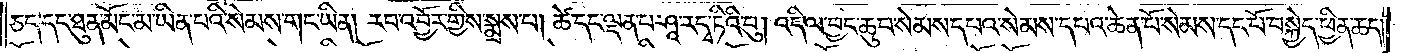ཅད་དང་ཐུན་མོང་མ་ཡིན་པའི་སེམས་གང་ཡིན། རབ་འབྱོར་གྱིས་སྨྲས་པ། ཚེ་དང་ལྡན་པ་ཤཱ་རདྭ་ཏིའི་བུ། འདི་ལ་བྱང་ཆུབ་སེམས་དཔའ་སེམས་དཔའ་ཆེན་པོ་སེམས་དང་པོ་བསྐྱེད་ཕྱིན་ཆད།
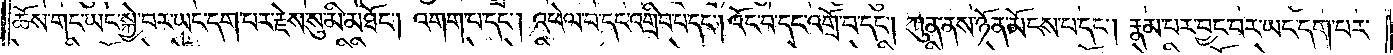ཆོས་གང་ཡང་སྐྱེ་བར་ཡང་དག་པར་རྗེས་སུ་མི་མཐོང༌། འགག་པ་དང༌། འཕེལ་བ་དང་འགྲིབ་པ་དང༌། འོང་བ་དང་འགྲོ་བ་དང༌། ཀུན་ནས་ཉོན་མོངས་པ་དང༌། རྣམ་པར་བྱང་བར་ཡང་དག་པར་
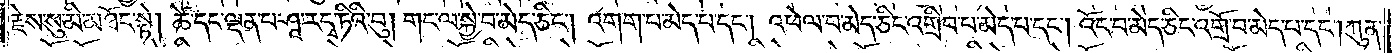རྗེས་སུ་མི་མཐོང་སྟེ། ཚེ་དང་ལྡན་པ་ཤཱ་རདྭ་ཏིའི་བུ། གང་ལ་སྐྱེ་བ་མེད་ཅིང༌། འགག་པ་མེད་པ་དང༌། འཕེལ་བ་མེད་ཅིང་འགྲིབ་པ་མེད་པ་དང༌། འོང་བ་མེད་ཅིང་འགྲོ་བ་མེད་པ་དང༌། ཀུན་
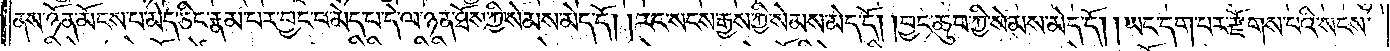ནས་ཉོན་མོངས་པ་མེད་ཅིང་རྣམ་པར་བྱང་བ་མེད་པ་དེ་ལ་ཉན་ཐོས་ཀྱི་སེམས་མེད་དོ། །རང་སངས་རྒྱས་ཀྱི་སེམས་མེད་དོ། །བྱང་ཆུབ་ཀྱི་སེམས་མེད་དོ། །ཡང་དག་པར་རྫོགས་པའི་སངས་
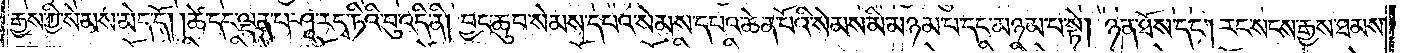རྒྱས་ཀྱི་སེམས་མེད་དོ། །ཚེ་དང་ལྡན་པ་ཤཱ་རདྭ་ཏིའི་བུ་འདི་ནི། བྱང་ཆུབ་སེམས་དཔའ་སེམས་དཔའ་ཆེན་པོའི་སེམས་མི་མཉམ་པ་དང་མཉམ་པ་སྟེ། ཉན་ཐོས་དང༌། རང་སངས་རྒྱས་ཐམས་
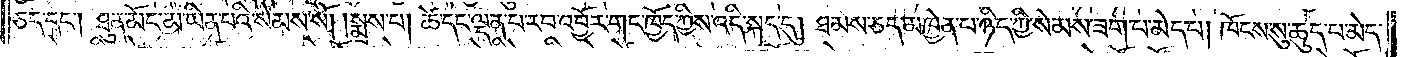ཅད་དང༌། ཐུན་མོང་མ་ཡིན་པའི་སེམས་སོ། །སྨྲས་པ། ཚེ་དང་ལྡན་པ་རབ་འབྱོར་གང་ཁྱོད་ཀྱིས་འདི་སྐད་དུ། ཐམས་ཅད་མཁྱེན་པ་ཉིད་ཀྱི་སེམས་ཟག་པ་མེད་པ། ཁོངས་སུ་ཆུད་པ་མེད་
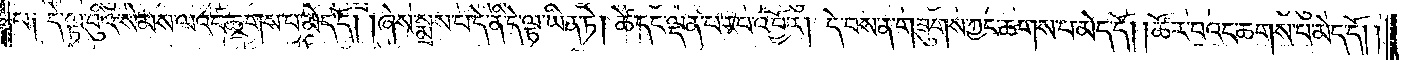པ༑ དེ་ལྟ་བུའི་སེམས་ལའང་ཆགས་པ་མེད་དོ། ཞེས་སྨྲས་པ་དེ་ནི་དེ་ལྟ་ཡིན་ཏེ། ཚེ་དང་ལྡན་པ་རབ་འབྱོར། དེ་བས་ན་གཟུགས་ཀྱང་ཆགས་པ་མེད་དོ། །ཚོར་བའང་ཆགས་པ་མེད་དོ། །
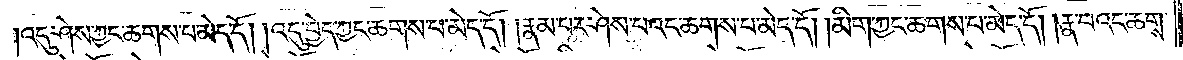འདུ་ཤེས་ཀྱང་ཆགས་པ་མེད་དོ། །འདུ་བྱེད་ཀྱང་ཆགས་པ་མེད་དོ། །རྣམ་པར་ཤེས་པའང་ཆགས་པ་མེད་དོ། །མིག་ཀྱང་ཆགས་པ་མེད་དོ། །རྣ་བའང་ཆགས་
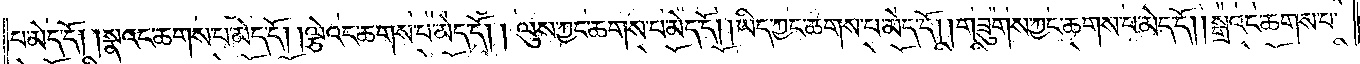པ་མེད་དོ། །སྣའང་ཆགས་པ་མེད་དོ། །ལྕེའང་ཆགས་པ་མེད་དོ། །ལུས་ཀྱང་ཆགས་པ་མེད་དོ། །ཡིད་ཀྱང་ཆགས་པ་མེད་དོ། །གཟུགས་ཀྱང་ཆགས་པ་མེད་དོ། །སྒྲའང་ཆགས་པ་
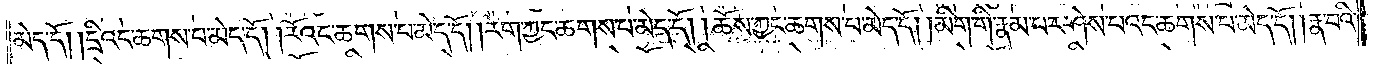མེད་དོ། །དྲིའང་ཆགས་པ་མེད་དོ། །རོའང་ཆགས་པ་མེད་དོ། །རེག་ཀྱང་ཆགས་པ་མེད་དོ། །ཆོས་ཀྱང་ཆགས་པ་མེད་དོ། །མིག་གི་རྣམ་པར་ཤེས་པའང་ཆགས་པ་མེད་དོ། །རྣ་བའི་
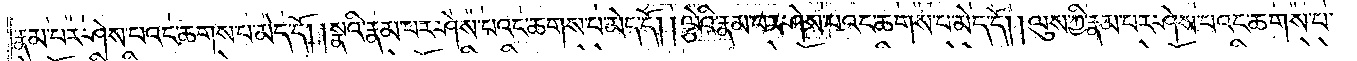རྣམ་པར་ཤེས་པའང་ཆགས་པ་མེད་དོ། །སྣའི་རྣམ་པར་ཤེས་པའང་ཆགས་པ་མེད་དོ། །ལྕེའི་རྣམ་པར་ཤེས་པའང་ཆགས་པ་མེད་དོ། །ལུས་ཀྱི་རྣམ་པར་ཤེས་པའང་ཆགས་པ་
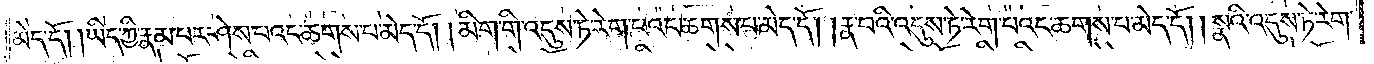མེད་དོ། །ཡིད་ཀྱི་རྣམ་པར་ཤེས་པའང་ཆགས་པ་མེད་དོ། །མིག་གི་འདུས་ཏེ་རེག་པའང་ཆགས་པ་མེད་དོ། །རྣ་བའི་འདུས་ཏེ་རེག་པའང་ཆགས་པ་མེད་དོ། །སྣའི་འདུས་ཏེ་རེག་
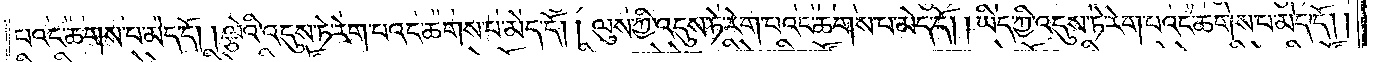པའང་ཆགས་པ་མེད་དོ། །ལྕེའི་འདུས་ཏེ་རེག་པའང་ཆགས་པ་མེད་དོ། །ལུས་ཀྱི་འདུས་ཏེ་རེག་པའང་ཆགས་པ་མེད་དོ། །ཡིད་ཀྱི་འདུས་ཏེ་རེག་པའང་ཆགས་པ་མེད་དོ། །
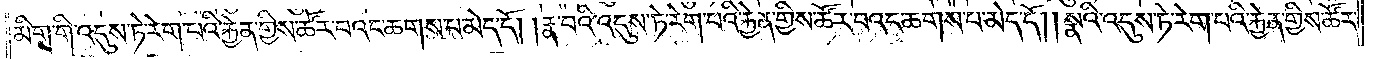མིག་གི་འདུས་ཏེ་རེག་པའི་རྐྱེན་གྱིས་ཚོར་བའང་ཆགས་པ་མེད་དོ། །རྣ་བའི་འདུས་ཏེ་རེག་པའི་རྐྱེན་གྱིས་ཚོར་བའང་ཆགས་པ་མེད་དོ། །སྣའི་འདུས་ཏེ་རེག་པའི་རྐྱེན་གྱིས་ཚོར་
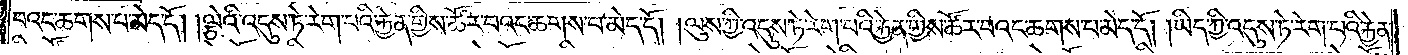བའང་ཆགས་པ་མེད་དོ། །ལྕེའི་འདུས་ཏེ་རེག་པའི་རྐྱེན་གྱིས་ཚོར་བའང་ཆགས་པ་མེད་དོ། །ལུས་ཀྱི་འདུས་ཏེ་རེག་པའི་རྐྱེན་གྱིས་ཚོར་བའང་ཆགས་པ་མེད་དོ། །ཡིད་ཀྱི་འདུས་ཏེ་རེག་པའི་རྐྱེན་
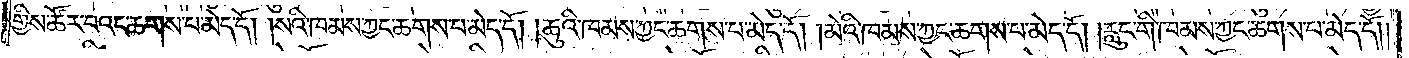གྱིས་ཚོར་བའང་ཆགས་པ་མེད་དོ། །སའི་ཁམས་ཀྱང་ཆགས་པ་མེད་དོ། །ཆུའི་ཁམས་ཀྱང་ཆགས་པ་མེད་དོ། །མེའི་ཁམས་ཀྱང་ཆགས་པ་མེད་དོ། །རླུང་གི་ཁམས་ཀྱང་ཆགས་པ་མེད་དོ། །
